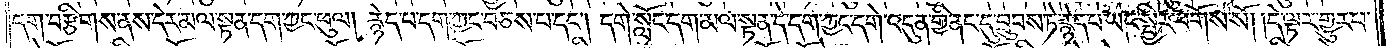དག་བརྩིགས་ནས་དེར་མལ་སྟན་དག་ཀྱང་ཕུལ། རྙེད་པ་དག་ཀྱང་བཅས་པ་དང༌། དགེ་སློང་དག་མལ་སྟན་དེ་དག་ཀྱང་དགེ་འདུན་གྱི་ནང་དུ་བྲུབས་ཏེ་རྙེད་པ་ཡང་སྤྱིར་བགོས་སོ། །དེ་ལྟར་གྱུར་པ་
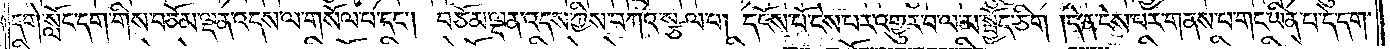དགེ་སློང་དག་གིས་བཅོམ་ལྡན་འདས་ལ་གསོལ་པ་དང༌། བཅོམ་ལྡན་འདས་ཀྱིས་བཀའ་སྩལ་པ། དངོས་པོ་ངེས་པར་འགྱུར་བ་ལ་མ་སྤྱོད་ཅིག །དེ་ན་ངེས་པར་གནས་པ་གང་ཡིན་པ་དེ་དག་
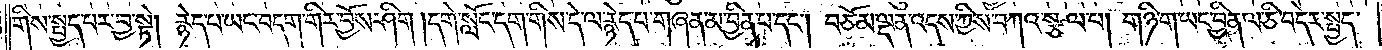གིས་སྤྱད་པར་བྱ་སྟེ། རྙེད་པ་ཡང་བདག་གིས་བྱོས་ཤིག །དགེ་སློང་དག་གིས་དེ་ལ་རྙེད་པ་གཞན་མ་བྱིན་པ་དང༌། བཅོམ་ལྡན་འདས་ཀྱིས་བཀའ་སྩལ་པ། གཉི་ག་ཡང་བྱིན་ལ་ཅི་བདེར་སྤྱད་
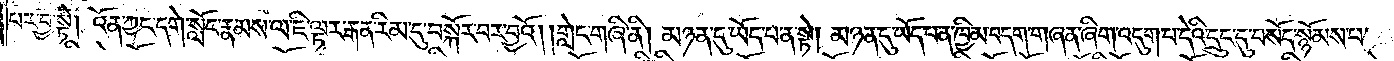པར་བྱ་སྟེ། འོན་ཀྱང་དགེ་སློང་རྣམས་ལ་ཇི་ལྟར་རྒན་རིམ་དུ་བསྐོར་བར་བྱའོ། །གླེང་གཞི་ནི། མཉན་དུ་ཡོད་པ་ན་སྟེ། མཉན་དུ་ཡོད་པ་ན་ཁྱིམ་བདག་གཞན་ཞིག་འདུག་པ་དེའི་དྲུང་དུ་བསོད་སྙོམས་པ་
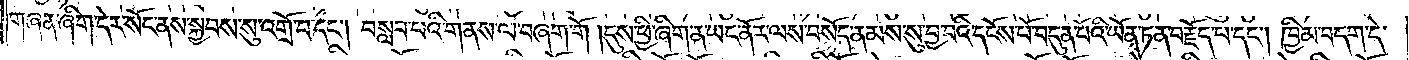གཞན་ཞིག་དེར་སོང་ནས་སྐྱབས་སུ་འགྲོ་བ་དང༌། བསླབ་པའི་གནས་ལ་བཞག་གོ །དུས་ཕྱི་ཞིག་ན་ཡང་ནོར་ལས་བསོད་ནམས་སུ་བྱ་བའི་དངོས་པོ་བདུན་པོའི་ཡོན་ཏན་བརྗོད་པ་དང༌། ཁྱིམ་བདག་དེ་
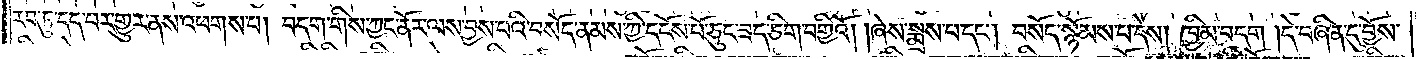རབ་ཏུ་དད་པར་གྱུར་ནས་འཕགས་པ། བདག་གིས་ཀྱང་ནོར་ལས་བྱས་པའི་བསོད་ནམས་ཀྱི་དངོས་པོ་ཅུང་ཟད་ཅིག་བགྱིའོ། །ཞེས་སྨྲས་པ་དང༌། བསོད་སྙོམས་པ་དེས། ཁྱིམ་བདག །དེ་བཞིན་དུ་བྱོས་
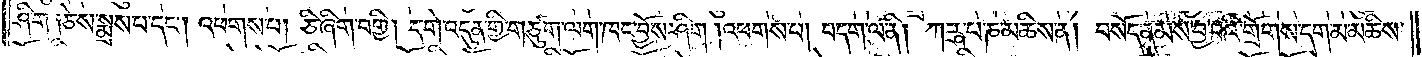ཤིག་༑ཅེས་སྨྲས་པ་དང༌། འཕགས་པ། ཅི་ཞིག་བགྱི། དགེ་འདུན་གྱི་གཙུག་ལག་ཁང་བྱོས་ཤིག །འཕགས་པ། བདག་ལ་ནི། ཀཪྴ་པ་ཎ་མཆིས་ན། བསོད་ནམས་བྱ་བའི་གྲོགས་དག་མ་མཆིས་
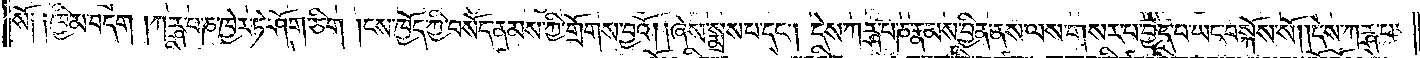སོ༑ ༑ཁྱིམ་བདག །ཀཪྴ་པ་ཎ་ཁྱེར་ཏེ་ཤོག་ཅིག །ངས་ཁྱོད་ཀྱིས་བསོད་ནམས་ཀྱི་གྲོགས་བྱའོ། །ཞེས་སྨྲས་པ་དང༌། དེས་ཀཪྴ་པ་ཎ་རྣམས་བྱིན་ནས་ལས་གསར་པ་བྱེད་པ་ཡང་བསྐོས་སོ། །དེས་ཀཪྴ་པ་
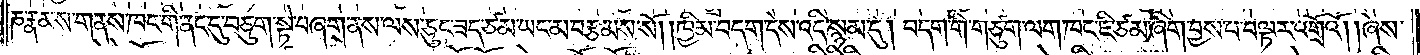ཎ་རྣམས་གནས་ཁང་གི་ནང་དུ་བཅུག་སྟེ་བཞག་ནས་ལས་ཅུང་ཟད་ཙམ་ཡང་མ་བརྩམས་སོ། །ཁྱིམ་བདག་དེས་འདི་སྙམ་དུ། བདག་གི་གཙུག་ལག་ཁང་ཇི་ཙམ་ཞིག་བྱས་པ་བལྟར་འགྲོའོ། །ཞེས་
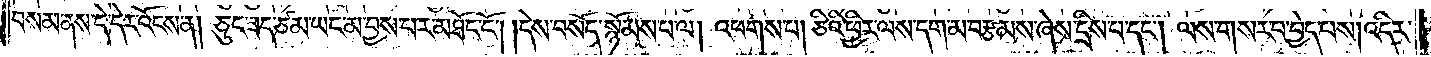བསམ་ནས་དེ་དེར་འོངས་ན། ཅུང་ཟད་ཙམ་ཡང་མ་བྱས་པར་མཐོང་ངོ༌། །དེས་བསོད་སྙོམས་པ་ལ། འཕགས་པ། ཅིའི་ཕྱིར་ལས་དག་མ་བརྩམས་ཞེས་དྲིས་པ་དང༌། ལས་གསར་པ་བྱེད་པས། འདིར་
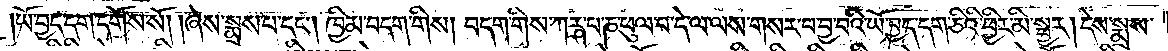ཡོ་བྱད་དག་དགོས་སོ། །ཞེས་སྨྲས་པ་དང༌། ཁྱིམ་བདག་གིས། བདག་གིས་ཀཪྴ་པ་ཎ་ཕུལ་བ་དེ་ལ་ལས་གསར་པ་བྱ་བའི་ཡོ་བྱད་དག་ཅིའི་ཕྱིར་མི་སྦྱར། དེས་སྨྲས་
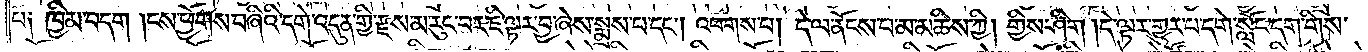པ༑ ཁྱིམ་བདག །ངས་ཕྱོགས་བཞིའི་དགེ་འདུན་གྱི་རྫས་མ་རུང་བར་ཇི་ལྟར་བྱ་ཞེས་སྨྲས་པ་དང༌། འཕགས་པ། དེ་ལ་ནོངས་པ་མ་མཆིས་ཀྱི། གྱིས་ཤིག །དེ་ལྟར་གྱུར་པ་དགེ་སློང་དག་གིས་
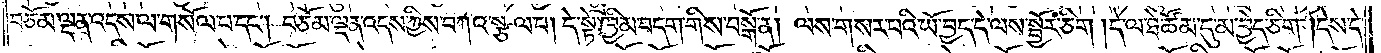བཅོམ་ལྡན་འདས་ལ་གསོལ་པ་དང༌། བཅོམ་ལྡན་འདས་ཀྱིས་བཀའ་སྩལ་པ། དེ་སྟེ་ཁྱིམ་བདག་གིས་བསྒོ་ན། ལས་གསར་པའི་ཡོ་བྱད་དེ་ལས་སྦྱོར་ཅིག །དེ་ལ་ཐེ་ཚོམ་དུ་མ་བྱེད་ཅིག །དེས་དེ་
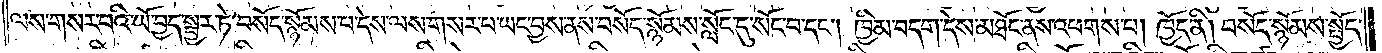ལས་གསར་པའི་ཡོ་བྱད་སྦྱར་ཏེ་བསོད་སྙོམས་པ་དེས་ལས་གསར་པ་ཡང་བྱས་ནས་བསོད་སྙོམས་སློང་དུ་སོང་བ་དང༌། ཁྱིམ་བདག་དེས་མཐོང་ནས་འཕགས་པ། ཁྱོད་ནི། བསོད་སྙོམས་སྤྱོད་
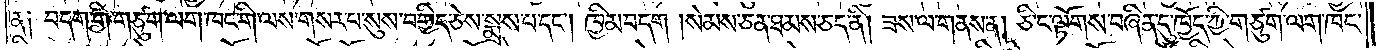ན༑ བདག་གི་གཙུག་ལག་ཁང་གི་ལས་གསར་པ་སུས་བགྱིད་ཅེས་སྨྲས་པ་དང༌། ཁྱིམ་བདག །སེམས་ཅན་ཐམས་ཅད་ནི། ཟས་ལ་གནས་ན། ཅིང་ལྟོགས་བཞིན་དུ་ཁྱོད་ཀྱི་གཙུག་ལག་ཁང་
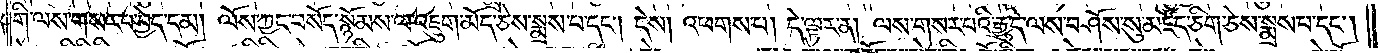གི་ལས་གསར་པ་བྱེད་དམ། ལོས་ཀྱང་བསོད་སྙོམས་ལ་འཇུག་མོད་ཅེས་སྨྲས་པ་དང༌། དེས། འཕགས་པ། དེ་ལྟར་ན། ལས་གསར་པའི་རྒྱུ་དེ་ལས་བཤོས་སུ་མཛོད་ཅིག་ཅེས་སྨྲས་པ་དང༌།
